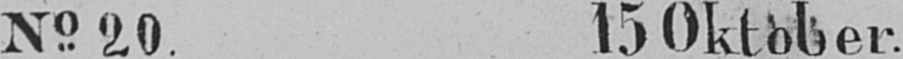N:o 20. 15 Oktober. 1865.
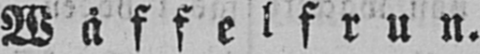Wåffe lfrun.
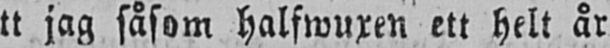Att jag såsom halfwuxen ett helt år
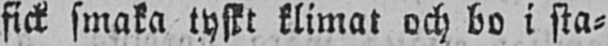fick smaka tyskt klimat och bo i sta-
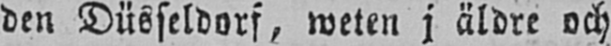den Düsseldorf, weten j äldre och
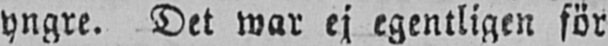yngre. Det war ej egentligen för
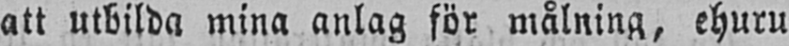att utbilda mina anlag för målning, ehuru
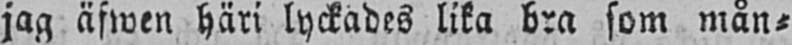jag äfwen häri lyckades lika bra som mån-
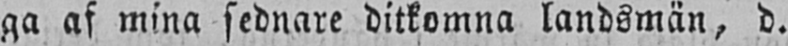ga af mina sednare ditkomna landsmän, d.
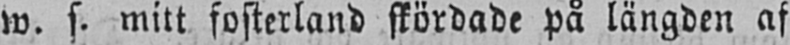w. s. mitt fosterland skördade på längden af
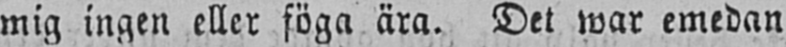mig ingen eller föga ära. Det war emedan
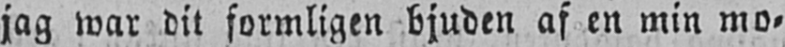jag war dit formligen bjuden af en min mo-
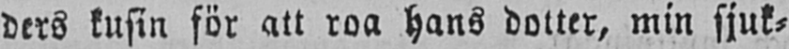ders kusin för att roa hans dotter, min sjuk-
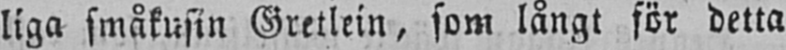liga småkusin Gretlein, som långt för detta
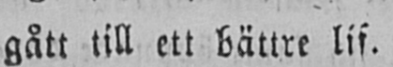gått till ett bättre lif.
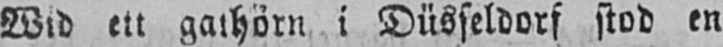Wid ett gathörn i Düsseldorf stod en
